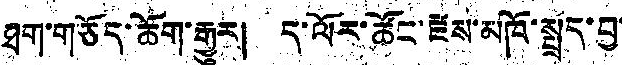ཐག་གཅོད་ཆོག་རྒྱུར། ད་ལོར་ཚོང་རྫས་མཁོ་སྤྲད་བྱ་
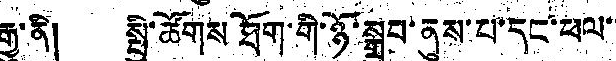རྒྱུ་ནི། སྤྱི་ཚོགས ཐོག་གི་ཉོ་སྒྲུབ་ནུས་པ་དང་ཕལ་་
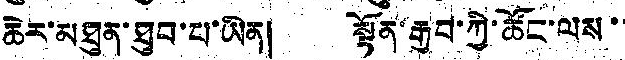ཆེར་མཐུན་ཐུབ་པ་ཡིན། སྟོན་རྒྱབ་ཀྱི་ཚོང་ལས་་
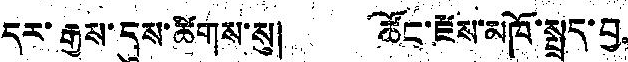དར་རྒྱས་དུས་ཚིགས་སུ། ཚོང་རྫས་མཁོ་སྤྲད་བྱ
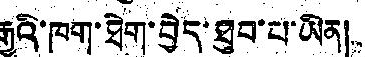རྒྱུའི་ཁག་ཐེག་བྱེད་ཐུབ་པ་ཡིན།
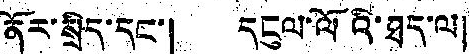ནོར་སྲིད་དང་། དངུལ་ལོའི་ཐད་ལ།
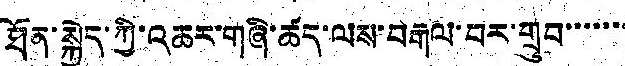ཐོན་སྐྱེད་ཀྱི་འཆར་གཞི་ཚད་ལས་བརྒལ་བར་གྲུབ་་་་་་་
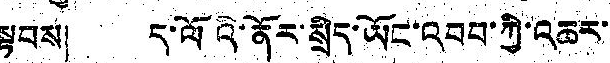སྟབས། ད་ལོའི་ནོར་སྲིད་ཡོང་འབབ་ཀྱི་འཆར་་
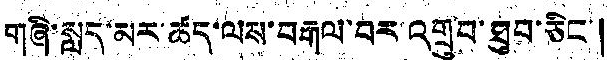གཞི་སླད་མར་ཚད་ལས་བརྒལ་བར་འགྲུབ་ཐུབ་ཅིང་།
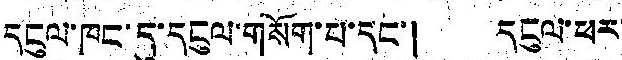དངུལ་ཁང་དུ་དངུལ་གསོག་པ་དང་། དངུལ་ཕར་
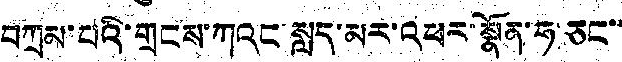བཀྲམ་པའི་གྲངས་ཀའང་སླད་མར་འཕར་སྣོན་ཧ་ཅང་་
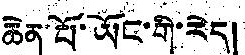ཆེན་པོ་ཡོང་གི་རེད།
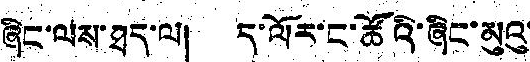ཞིང་ལས་ཐད་ལ། ད་ལོར་ང་ཚོའི་ཞིང་མུའུ་
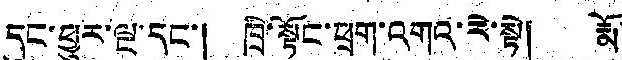དུང་ཕྱུར་ལྔ་དང་། ཁྲི་སྟོང་ཕྲག་འགའ་རེ་སྟེ། རྨོ་
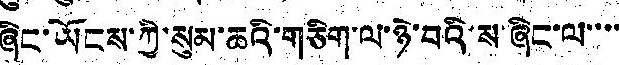ཞིང་ཡོངས་ཀྱི་སུམ་ཆའི་གཅིག་ལ་ཉེ་བའི་ས་ཞིང་ལ་་་་
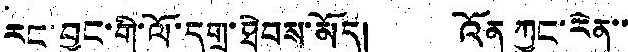རང་བྱུང་གི་ལོ་དགྲ་ཐེབས་མོད། འོན ཀྱང་རེན་་
